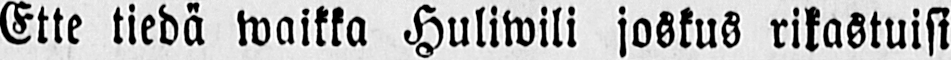Ette tiedä waikka Huliwili joskus rikastuisi
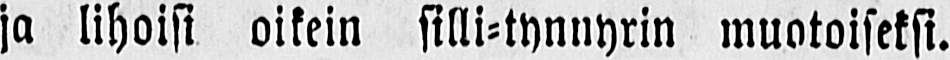ja lihoisi oikein silli-tynnyrin muotoiseksi.
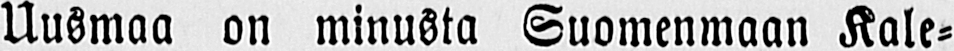Uusmaa on minusta Suomenmaan Kale-
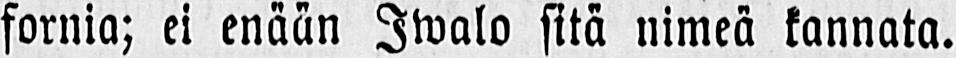fornia; ei enään Iwalo sitä nimeä kannata.
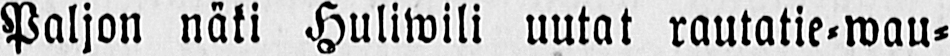Paljon näki Huliwili uutat rautatie-wau-
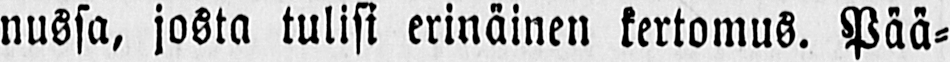nussa, josta tulisi erinäinen kertomus. Pää-
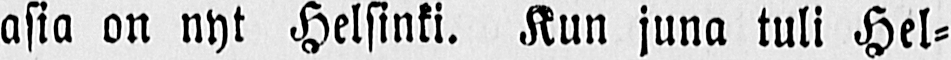asia on nyt Helsinki. Kun juna tuli Hel-
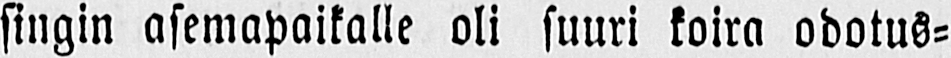singin asemapaikalle oli suuri koira odotus-
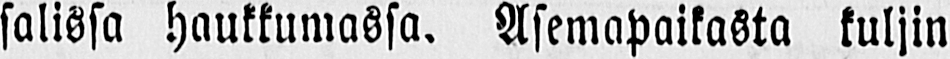salissa haukkumassa. Asemapaikasta kuljin
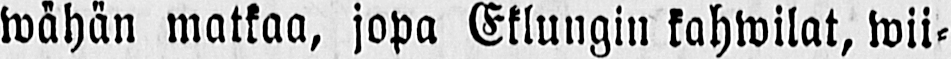wähän matkaa, jopa Eklungin kahwilat, wii-
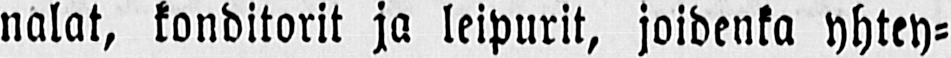nalat, konditorit ja leipurit, joidenka yhtey-
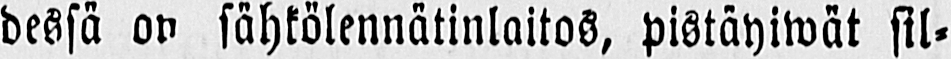dessä on sähkölennätinlaitos, pistäyiwät sil-
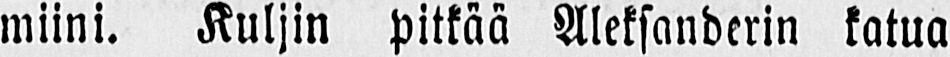miini. Kuljin pitkää Aleksanderin katua
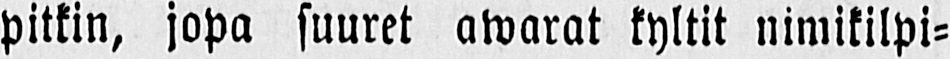pitkin, jopa suuret awarat kyltit nimikilpi-
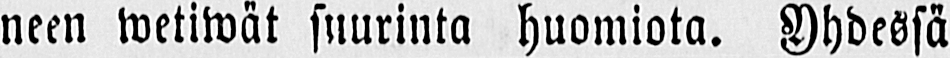neen wetiwät suurinta huomiota. Ydessä
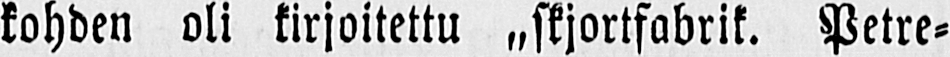kohden oli kirjoitettu „skjortfabrik. Petre-
